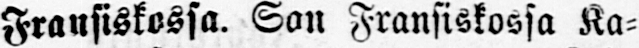Fransiskossa. San Fransiskossa Ka-
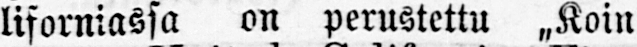liforniassa on perustettu „Koin
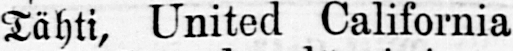Tähti, United California Fin-
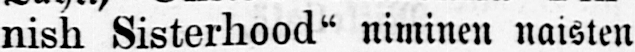nish Sisterhood" niminen naisten
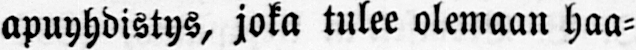apuyhdistys, joka tulee olemaan haa-
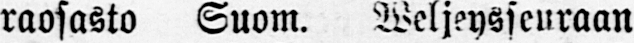raosasto Suom. Weljeysseuraan
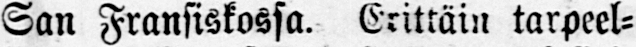San Fransiskossa. Erittäin tarpeel-
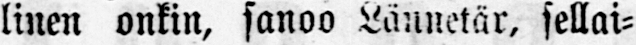linen onkin, sanoo Lännetär, sellai-
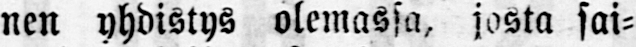nen yhdistys olemassa, josta sai-
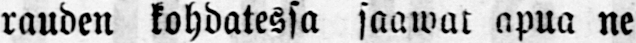rauden kohdatessa saawat apua ne
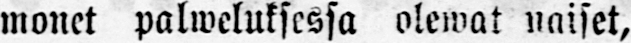monet palweluksessa olewat naiset,
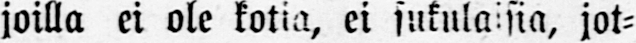joilla ei ole kotia, ei sukulaisia, jot-
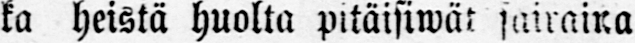ka heistä huolta pitäisiwät sairaina
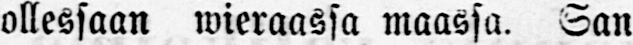ollessaan wieraassa maassa. San
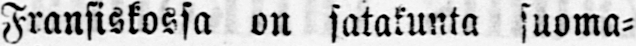Fransiskossa on satakunta suoma-
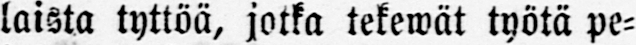laista tyttöä, jotka tekewät työtä pe-
